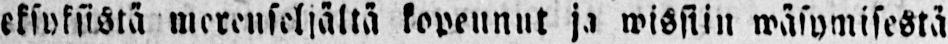eksyksistä merenseljältä kopeunut ja wissiin wäsymisestä
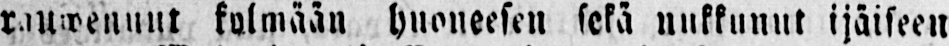rauwenuut kylmään huoneesen sekä nukkunut ijäiseen
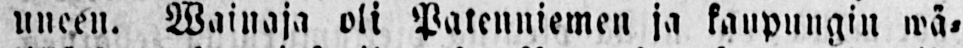uneen. Wainaja oli Patenniemen ja kaupungin wä-
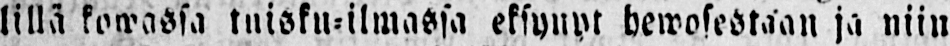lillä kowassa tuisku-ilmassa eksynyt hewosestaan ja niin
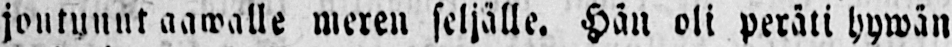joutunut aawalle meren seljälle. Hän oli peräti hywän
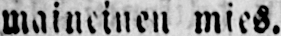maineinen mies.
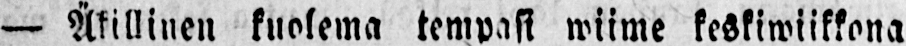— Äkillinen kuolema tempasi wiime keskiwiikkona
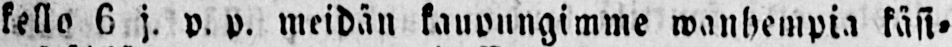kello 6 j. p. p. meidän kaupungimme wanhempia käsi-
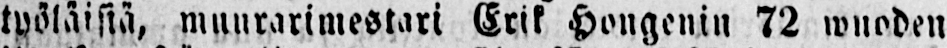työläisiä, muurarimestari Erik Hongenin, 72 wuoden
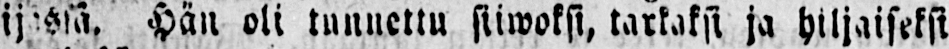ij@Stä. Hän oli tunnettu siiwoksi, tarkaksi ja hiljaiseksi
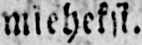mieheksi.
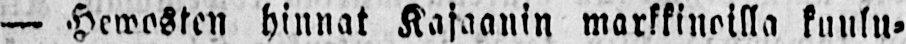— Hewosten hinnat Kajaanin markkinoilla kuulu-
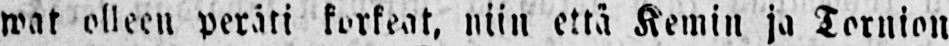wat olleen peräti korkeat, niin että Kemin ja Tornion
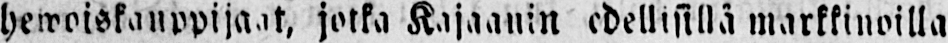hewoiskauppijaat, jotka Kajaanin edellisillä markkinoilla
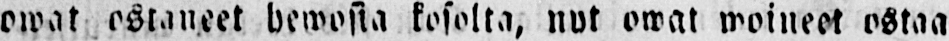owat ostaneet hewosia kosolta, nyt owat woineet ostaa
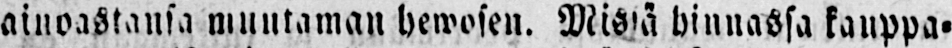ainoastansa muutaman hewosen. Missä hinnassa kauppa-
